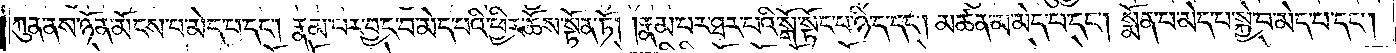ཀུན་ནས་ཉོན་མོངས་པ་མེད་པ་དང༌། རྣམ་པར་བྱང་བ་མེད་པའི་ཕྱིར་ཆོས་སྟོན་ཏོ། །རྣམ་པར་ཐར་པའི་སྒོ་སྟོང་པ་ཉིད་དང༌། མཚན་མ་མེད་པ་དང༌། སྨོན་པ་མེད་པ་སྐྱེ་བ་མེད་པ་དང༌།
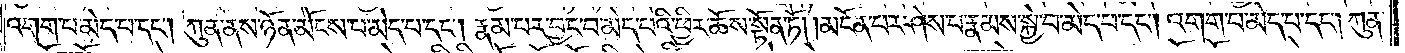འགག་པ་མེད་པ་དང༌། ཀུན་ནས་ཉོན་མོངས་པ་མེད་པ་དང༌། རྣམ་པར་བྱང་བ་མེད་པའི་ཕྱིར་ཆོས་སྟོན་ཏོ། །མངོན་པར་ཤེས་པ་རྣམས་སྐྱེ་བ་མེད་པ་དང༌། འགག་པ་མེད་པ་དང༌། ཀུན་
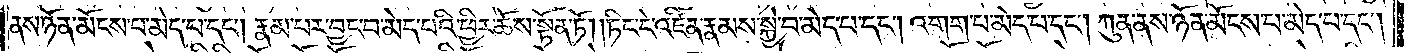ནས་ཉོན་མོངས་པ་མེད་པ་དང༌། རྣམ་པར་བྱང་བ་མེད་པའི་ཕྱིར་ཆོས་སྟོན་ཏོ། །ཏིང་ངེ་འཛིན་རྣམས་སྐྱེ་བ་མེད་པ་དང༌། འགག་པ་མེད་པ་དང༌། ཀུན་ནས་ཉོན་མོངས་པ་མེད་པ་དང༌།
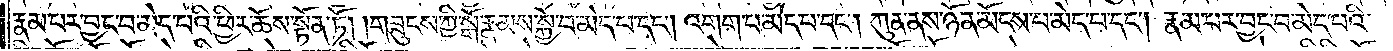རྣམ་པར་བྱང་བ་མེད་པའི་ཕྱིར་ཆོས་སྟོན་ཏོ། །གཟུངས་ཀྱི་སྒོ་རྣམས་སྐྱེ་བ་མེད་པ་དང༌། འགག་པ་མེད་པ་དང༌། ཀུན་ནས་ཉོན་མོངས་པ་མེད་པ་དང༌། རྣམ་པར་བྱང་བ་མེད་པའི་
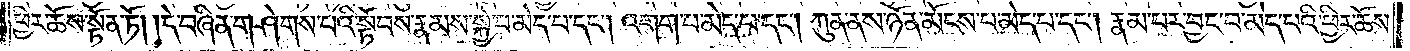ཕྱིར་ཆོས་སྟོན་ཏོ། །དེ་བཞིན་གཤེགས་པའི་སྟོབས་རྣམས་སྐྱེ་བ་མེད་པ་དང༌། འགག་པ་མེད་པ་དང༌། ཀུན་ནས་ཉོན་མོངས་པ་མེད་པ་དང༌། རྣམ་པར་བྱང་བ་མེད་པའི་ཕྱིར་ཆོས་
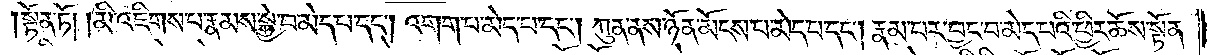སྟོན་ཏོ། །མི་འཇིགས་པ་རྣམས་སྐྱེ་བ་མེད་པ་དང༌། འགག་པ་མེད་པ་དང༌། ཀུན་ནས་ཉོན་མོངས་པ་མེད་པ་དང༌། རྣམ་པར་བྱང་བ་མེད་པའི་ཕྱིར་ཆོས་སྟོན་
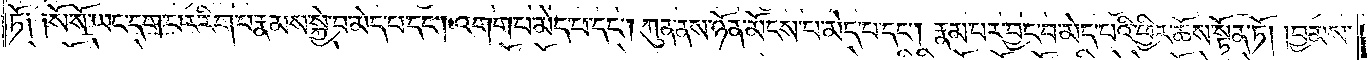ཏོ༑ ༑སོ་སོ་ཡང་དག་པར་རིག་པ་རྣམས་སྐྱེ་བ་མེད་པ་དང༌། འགག་པ་མེད་པ་དང༌། ཀུན་ནས་ཉོན་མོངས་པ་མེད་པ་དང༌། རྣམ་པར་བྱང་བ་མེད་པའི་ཕྱིར་ཆོས་སྟོན་ཏོ། །བྱམས་
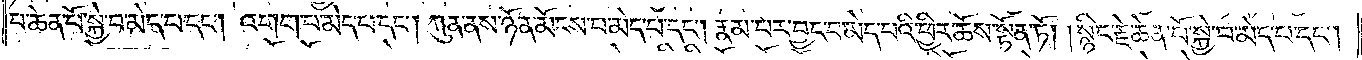པ་ཆེན་པོ་སྐྱེ་བ་མེད་པ་དང༌། འགག་པ་མེད་པ་དང༌། ཀུན་ནས་ཉོན་མོངས་པ་མེད་པ་དང༌། རྣམ་པར་བྱང་བ་མེད་པའི་ཕྱིར་ཆོས་སྟོན་ཏོ། །སྙིང་རྗེ་ཆེན་པོ་སྐྱེ་བ་མེད་པ་དང༌།
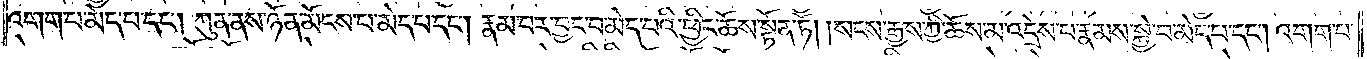འགག་པ་མེད་པ་དང༌། ཀུན་ནས་ཉོན་མོངས་པ་མེད་པ་དང༌། རྣམ་པར་བྱང་བ་མེད་པའི་ཕྱིར་ཆོས་སྟོན་ཏོ། །སངས་རྒྱས་ཀྱི་ཆོས་མ་འདྲེས་པ་རྣམས་སྐྱེ་བ་མེད་པ་དང༌། འགག་པ་
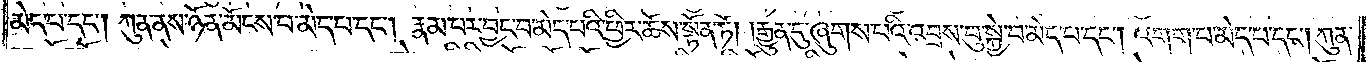མེད་པ་དང༌། ཀུན་ནས་ཉོན་མོངས་པ་མེད་པ་དང༌། རྣམ་པར་བྱང་བ་མེད་པའི་ཕྱིར་ཆོས་སྟོན་ཏོ། །རྒྱུན་དུ་ཞུགས་པའི་འབྲས་བུ་སྐྱེ་བ་མེད་པ་དང༌། འགག་པ་མེད་པ་དང༌། ཀུན་
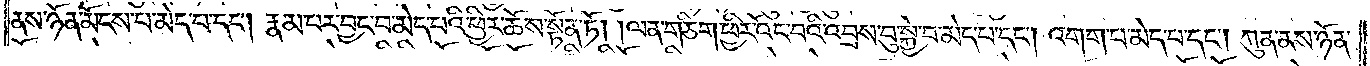ནས་ཉོན་མོངས་པ་མེད་པ་དང༌། རྣམ་པར་བྱང་བ་མེད་པའི་ཕྱིར་ཆོས་སྟོན་ཏོ། །ལན་གཅིག་ཕྱིར་འོང་བའི་འབྲས་བུ་སྐྱེ་བ་མེད་པ་དང༌། འགག་པ་མེད་པ་དང༌། ཀུན་ནས་ཉོན་
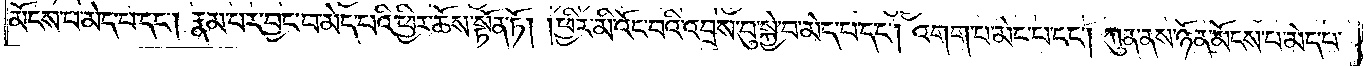མོངས་པ་མེད་པ་དང༌། རྣམ་པར་བྱང་བ་མེད་པའི་ཕྱིར་ཆོས་སྟོན་ཏོ། །ཕྱིར་མི་འོང་བའི་འབྲས་བུ་སྐྱེ་བ་མེད་པ་དང༌། འགག་པ་མེད་པ་དང༌། ཀུན་ནས་ཉོན་མོངས་པ་མེད་པ་
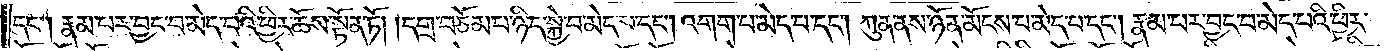དང༌། རྣམ་པར་བྱང་བ་མེད་པའི་ཕྱིར་ཆོས་སྟོན་ཏོ། །དགྲ་བཅོམ་པ་ཉིད་སྐྱེ་བ་མེད་པ་དང༌། འགག་པ་མེད་པ་དང༌། ཀུན་ནས་ཉོན་མོངས་པ་མེད་པ་དང༌། རྣམ་པར་བྱང་བ་མེད་པའི་ཕྱིར་
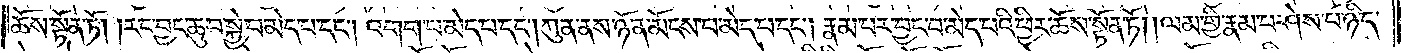ཆོས་སྟོན་ཏོ། །རང་བྱང་ཆུབ་སྐྱེ་བ་མེད་པ་དང༌། འགག་པ་མེད་པ་དང༌། ཀུན་ནས་ཉོན་མོངས་པ་མེད་པ་དང༌། རྣམ་པར་བྱང་བ་མེད་པའི་ཕྱིར་ཆོས་སྟོན་ཏོ། །ལམ་གྱི་རྣམ་པ་ཤེས་པ་ཉིད་
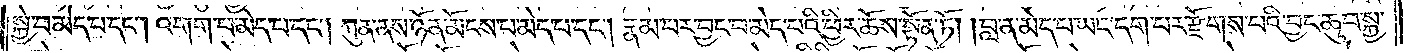སྐྱེ་བ་མེད་པ་དང༌། འགག་པ་མེད་པ་དང༌། ཀུན་ནས་ཉོན་མོངས་པ་མེད་པ་དང༌། རྣམ་པར་བྱང་བ་མེད་པའི་ཕྱིར་ཆོས་སྟོན་ཏོ། །བླ་ན་མེད་པ་ཡང་དག་པར་རྫོགས་པའི་བྱང་ཆུབ་སྐྱེ་
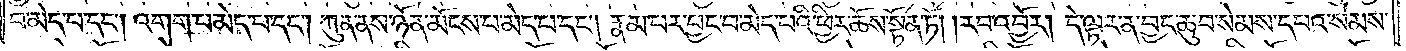བ་མེད་པ་དང༌། འགག་པ་མེད་པ་དང༌། ཀུན་ནས་ཉོན་མོངས་པ་མེད་པ་དང༌། རྣམ་པར་བྱང་བ་མེད་པའི་ཕྱིར་ཆོས་སྟོན་ཏོ། །རབ་འབྱོར། དེ་ལྟར་ན་བྱང་ཆུབ་སེམས་དཔའ་སེམས་
